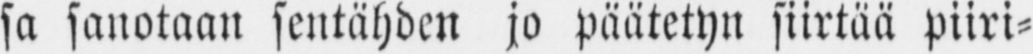sa sanotaan sentähden jo päätetyn siirtää piiri-
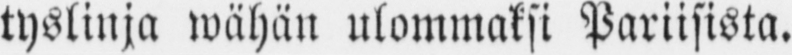tyslinja wähän ulommaksi Pariisista.
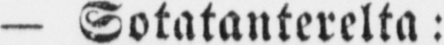— Sotatanterelta:
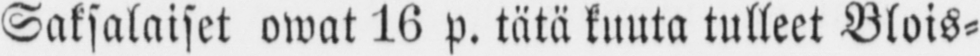Saksalaiset owat 16 p. tätä kuuta tulleet Blois-
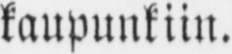kaupunkiin.
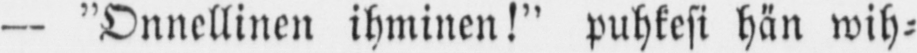— ”Onnellinen ihminen!” puhkesi hän wih-
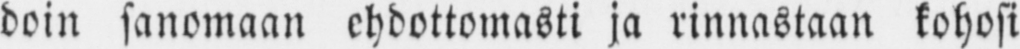doin sanomaan ehdottomasti ja rinnastaan kohosi
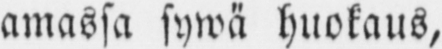amassa sywä huokaus,
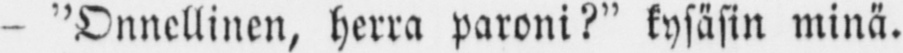- ”Onnellinen, herra paroni?” kysäsin minä.
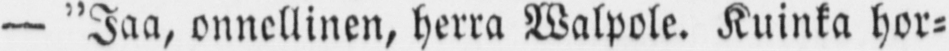— ”Jaa, onnellinen, herra Walpole. Kuinka hor-
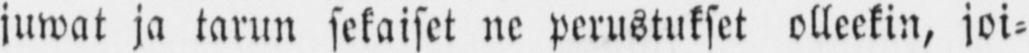juwat ja tarun sekaiset ne perustukset olleekin, joi-
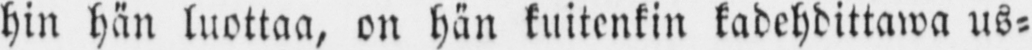hin hän luottaa, on hän kuitenkin kadehdittawa us-
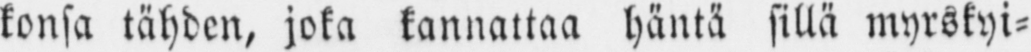konsa täyden, joka kannattaa häntä sillä myrskyi-
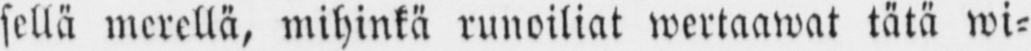sellä merellä, mihinkä runoiliat wertaawat tätä wi-
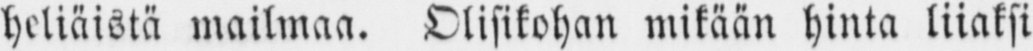heliäistä mailmaa. Olisikohan mikään hinta liiaksi
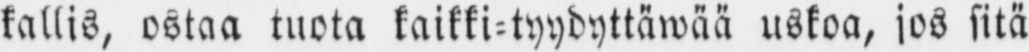kallis, ostaa tuota kaikki-tyydyttäwää uskoa, jos sitä
